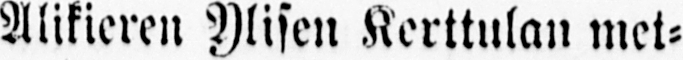Alikieren Ylisen Kerttulan met-
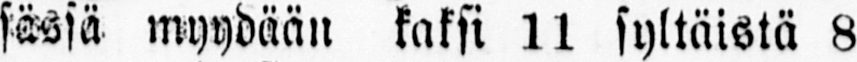sässä myydään kaksi 11 syltäistä 8
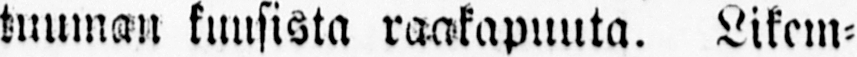tuuman kuusista raakapuuta. Likem-
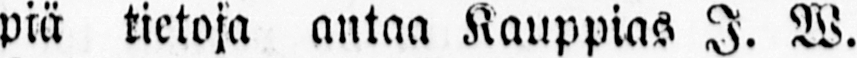piä tietoja antaa Kauppias J. W.
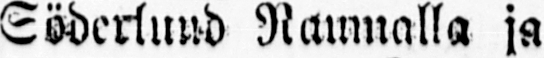Söderlund Raumalla ja
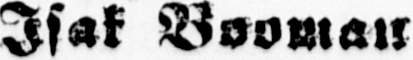Isak Booman
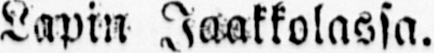Lapin Jaakkolassa.
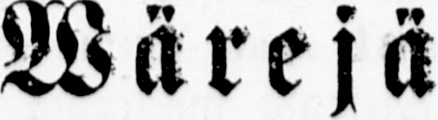Wärejä
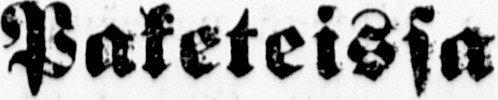Paketeissa
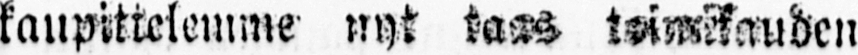kaupittelemme nyt taas toimikauden
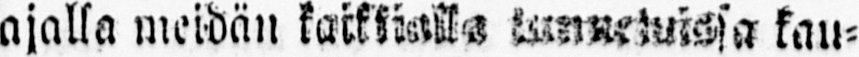ajalla meidän kaikkialla tunnetuissa kau-
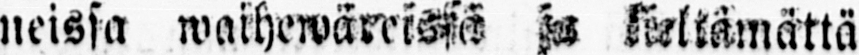neissä waihewäreissa ja saltämättä
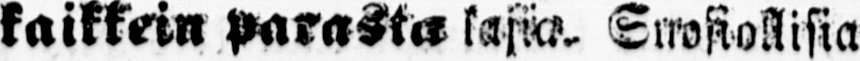kaikkein parasta lasia suosiollisia
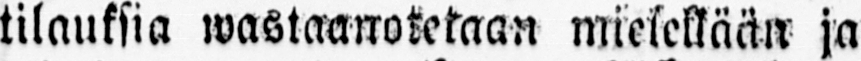tilauksia wastaanotetaan mielellään ja
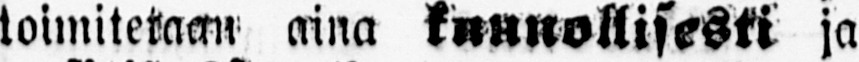toimitetaan, aina kaunollisesti ja
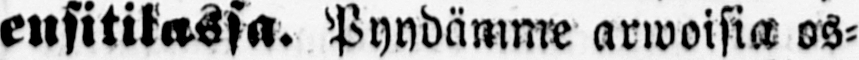ensitilassa. Pyydämme arwoisia os-
